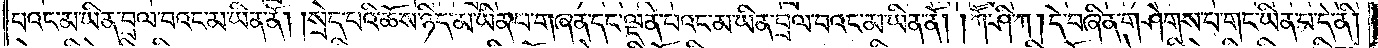པའང་མ་ཡིན་བྲལ་བའང་མ་ཡིན་ནོ། །སྲེད་པའི་ཆོས་ཉིད་མ་ཡིན་པ་གཞན་དང་ལྡན་པའང་མ་ཡིན་བྲལ་བའང་མ་ཡིན་ནོ། །ཀཽ་ཤི་ཀ །དེ་བཞིན་གཤེགས་པ་གང་ཡིན་པ་དེ་ནི།
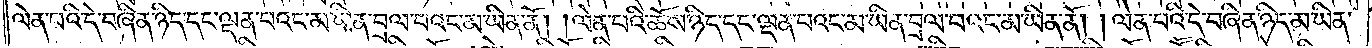ལེན་པའི་དེ་བཞིན་ཉིད་དང་ལྡན་པའང་མ་ཡིན་བྲལ་བའང་མ་ཡིན་ནོ། །ལེན་པའི་ཆོས་ཉིད་དང་ལྡན་པའང་མ་ཡིན་བྲལ་བའང་མ་ཡིན་ནོ། །ལེན་པའི་དེ་བཞིན་ཉིད་མ་ཡིན་
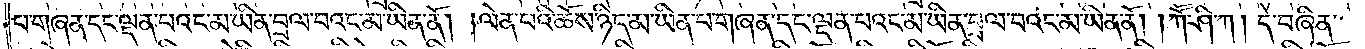པ་གཞན་དང་ལྡན་པའང་མ་ཡིན་བྲལ་བའང་མ་ཡིན་ནོ། །ལེན་པའི་ཆོས་ཉིད་མ་ཡིན་པ་གཞན་དང་ལྡན་པའང་མ་ཡིན་བྲལ་བའང་མ་ཡིན་ནོ། །ཀཽ་ཤི་ཀ །དེ་བཞིན་
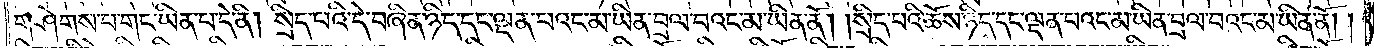གཤེགས་པ་གང་ཡིན་པ་དེ་ནི། སྲིད་པའི་དེ་བཞིན་ཉིད་དང་ལྡན་པའང་མ་ཡིན་བྲལ་བའང་མ་ཡིན་ནོ། །སྲིད་པའི་ཆོས་ཉིད་དང་ལྡན་པའང་མ་ཡིན་བྲལ་བའང་མ་ཡིན་ནོ། །
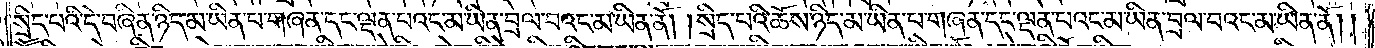སྲིད་པའི་དེ་བཞིན་ཉིད་མ་ཡིན་པ་གཞན་དང་ལྡན་པའང་མ་ཡིན་བྲལ་བའང་མ་ཡིན་ནོ། །སྲིད་པའི་ཆོས་ཉིད་མ་ཡིན་པ་གཞན་དང་ལྡན་པའང་མ་ཡིན་བྲལ་བའང་མ་ཡིན་ནོ། །
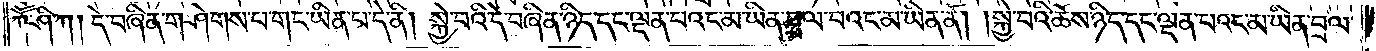ཀཽ་ཤི་ཀ །དེ་བཞིན་གཤེགས་པ་གང་ཡིན་པ་དེ་ནི། སྐྱེ་བའི་དེ་བཞིན་ཉིད་དང་ལྡན་པའང་མ་ཡིན་བྲལ་བའང་མ་ཡིན་ནོ། །སྐྱེ་བའི་ཆོས་ཉིད་དང་ལྡན་པའང་མ་ཡིན་བྲལ་
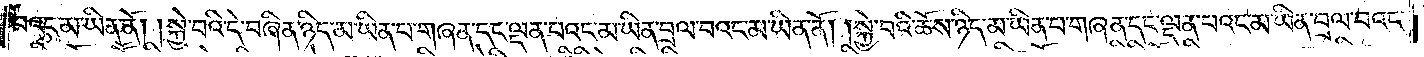བའང་མ་ཡིན་ནོ། །སྐྱེ་བའི་དེ་བཞིན་ཉིད་མ་ཡིན་པ་གཞན་དང་ལྡན་པའང་མ་ཡིན་བྲལ་བའང་མ་ཡིན་ནོ། །སྐྱེ་བའི་ཆོས་ཉིད་མ་ཡིན་པ་གཞན་དང་ལྡན་པའང་མ་ཡིན་བྲལ་བའང་
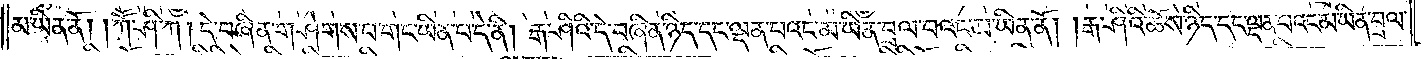མ་ཡིན་ནོ། །ཀཽ་ཤི་ཀ །དེ་བཞིན་གཤེགས་པ་གང་ཡིན་པ་དེ་ནི། རྒ་ཤའི་དེ་བཞིན་ཉིད་དང་ལྡན་པའང་མ་ཡིན་བྲལ་བའང་མ་ཡིན་ནོ། །རྒ་ཤིའི་ཆོས་ཉིད་དང་ལྡན་པའང་མ་ཡིན་བྲལ་
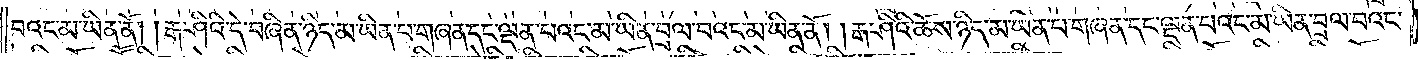བའང་མ་ཡིན་ནོ། །རྒ་ཤིའི་དེ་བཞིན་ཉིད་མ་ཡིན་པ་གཞན་དང་ལྡན་པའང་མ་ཡིན་བྲལ་བའང་མ་ཡིན་ནོ། །རྒ་ཤིའི་ཆོས་ཉིད་མ་ཡིན་པ་གཞན་དང་ལྡན་པའང་མ་ཡིན་བྲལ་བའང་
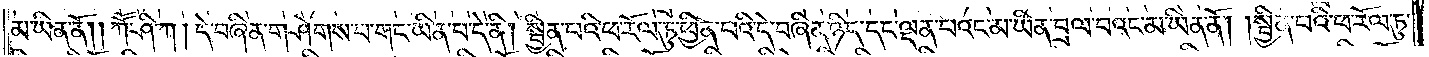མ་ཡིན་ནོ། །ཀཽ་ཤི་ཀ །དེ་བཞིན་གཤེགས་པ་གང་ཡིན་པ་དེ་ནི། སྦྱིན་པའི་ཕ་རོལ་ཏུ་ཕྱིན་པའི་དེ་བཞིན་ཉིད་དང་ལྡན་པའང་མ་ཡིན་བྲལ་བའང་མ་ཡིན་ནོ། །སྦྱིན་པའི་ཕ་རོལ་ཏུ་
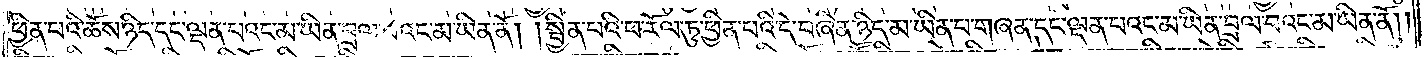ཕྱིན་པའི་ཆོས་ཉིད་དང་ལྡན་པའང་མ་ཡིན་བྲལ་བའང་མ་ཡིན་ནོ། །སྦྱིན་པའི་ཕ་རོལ་ཏུ་ཕྱིན་པའི་དེ་བཞིན་ཉིད་མ་ཡིན་པ་གཞན་དང་ལྡན་པའང་མ་ཡིན་བྲལ་བའང་མ་ཡིན་ནོ༎
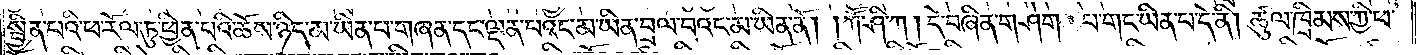སྦྱིན་པའི་ཕ་རོལ་ཏུ་ཕྱིན་པའི་ཆོས་ཉིད་མ་ཡིན་པ་གཞན་དང་ལྡན་པའང་མ་ཡིན་བྲལ་བའང་མ་ཡིན་ནོ། །ཀཽ་ཤི་ཀ །དེ་བཞིན་གཤེགས་པ་གང་ཡིན་པ་དེ་ནི། ཚུལ་ཁྲིམས་ཀྱི་ཕ་
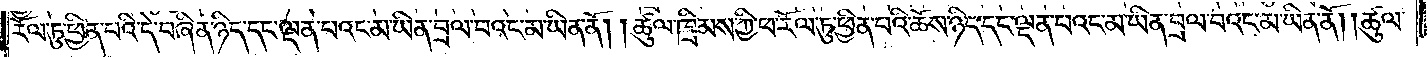རོལ་ཏུ་ཕྱིན་པའི་དེ་བཞིན་ཉིད་དང་ལྡན་པའང་མ་ཡིན་བྲལ་བའང་མ་ཡིན་ནོ། །ཚུལ་ཁྲིམས་ཀྱི་ཕ་རོལ་ཏུ་ཕྱིན་པའི་ཆོས་ཉིད་དང་ལྡན་པའང་མ་ཡིན་བྲལ་བའང་མ་ཡིན་ནོ། །ཚུལ་
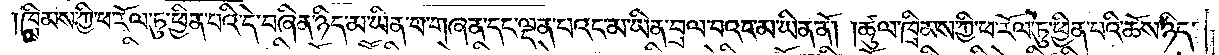ཁྲིམས་ཀྱི་ཕ་རོལ་ཏུ་ཕྱིན་པའི་དེ་བཞིན་ཉིད་མ་ཡིན་པ་གཞན་དང་ལྡན་པའང་མ་ཡིན་བྲལ་བའང་མ་ཡིན་ནོ། །ཚུལ་ཁྲིམས་ཀྱི་ཕ་རོལ་ཏུ་ཕྱིན་པའི་ཆོས་ཉིད་
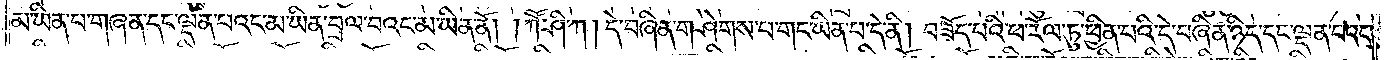མ་ཡིན་པ་གཞན་དང་ལྡན་པའང་མ་ཡིན་བྲལ་བའང་མ་ཡིན་ནོ། །ཀཽ་ཤི་ཀ །དེ་བཞིན་གཤེགས་པ་གང་ཡིན་པ་དེ་ནི། བཟོད་པའི་ཕ་རོལ་ཏུ་ཕྱིན་པའི་དེ་བཞིན་ཉིད་དང་ལྡན་པའང་
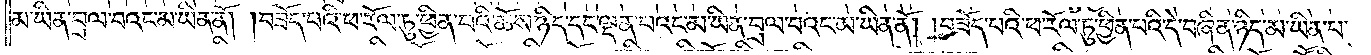མ་ཡིན་བྲལ་བའང་མ་ཡིན་ནོ། །བཟོད་པའི་ཕ་རོལ་ཏུ་ཕྱིན་པའི་ཆོས་ཉིད་དང་ལྡན་པའང་མ་ཡིན་བྲལ་བའང་མ་ཡིན་ནོ། །བཟོད་པའི་ཕ་རོལ་ཏུ་ཕྱིན་པའི་དེ་བཞིན་ཉིད་མ་ཡིན་པ་
